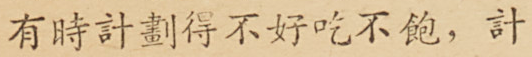有時計劃得不好吃不飽，計
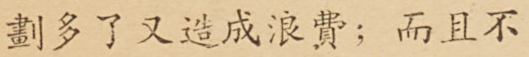劃多了又造成浪費；而且不
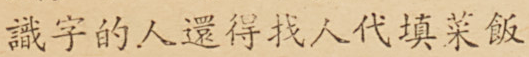識字的人還得找人代填菜飯
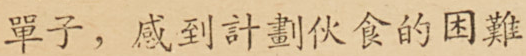單子，感到計劃伙食的困難
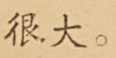很大。
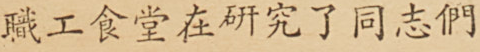職工食堂在研究了同志們
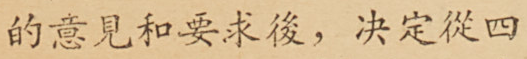意見和要求後，決定從四
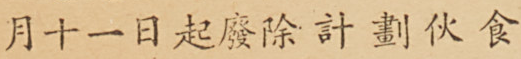月十一日起廢除計劃伙食
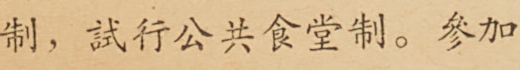制，試行公共食堂制。參加
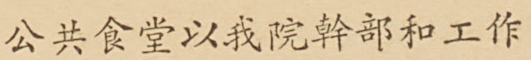公共食堂以我院幹部和工作
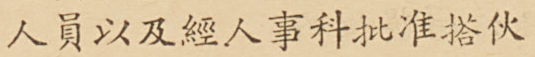人員以及經人事科批准搭伙
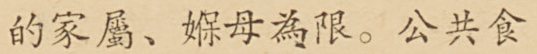的家屬、媬姆為限。公共食
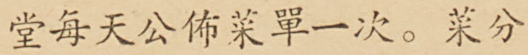堂每天公佈菜單一次。菜分
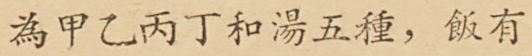為甲乙丙丁和湯五種，飯有
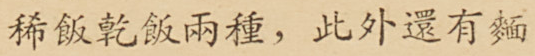稀飯乾飯兩種，此外還有麵
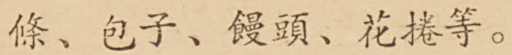條、包子、饅頭、花捲等。
